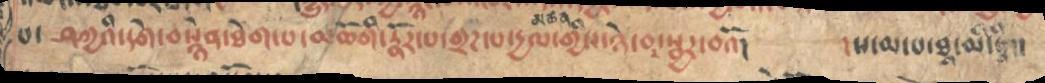པ་  ཤཀྱའི་དགེ་བསྙེན་ཐེག་པ་མཆོགི་རྣོར་པ་གྲཌ་པ་དྱལ་གྱིས་ཉེ་བར་སྦྱར་བའོ།    །ས་མ་པ་ཐཱ་མི་ཏཱི།།
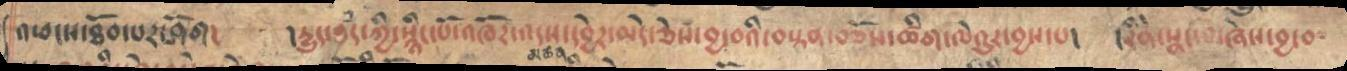འཕངས་ཐོབ་པར་ཤོག།   །དྱུད་ཐཾད་ཀྱི་སྙིང་པོ་འཁོར་འདས་དབྱེར་མེད་ཅེས་བྱ་བའི་བསྟན་བཅོས་ཚིག་ལེའུ་བྱས་པ།   །རིནེ་སྣང་བ་ཞེས་བྱ་བ༴
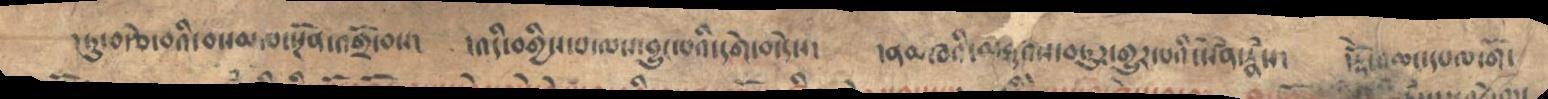། ཏུ་བརྩེ་བའི་བསམ་ལ་སྔོན་འགྲོ་བས།  །འདི་བགྱིས་པ་ལས་བྱུང་པའི་དགེ་བ་དེས།   །ནམཁའི་མཐས་བཏུཌ་གྱུར་པའི་སེཾན་རྣཾས།  །རྡོེ་འཆང་དཔལ་གོང
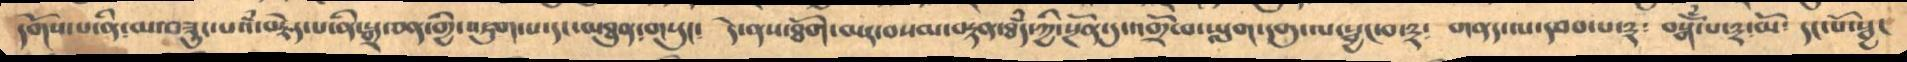དགོས་པ་ནི་མ་བཟུང་པའཾ་བརྗེད་པ་ནི་སྒྲ་ཅན་གྱི་འཇུག་པ་དང་མཐུན་གསུང༴   དེ་ནས་ཐོག་མར་བསམ་བརྟན་ཐཾད་ཀྱི་སྔོན་དུ་འགྲོ་བ་ཡླན་དགུ་ལ་སྦྱང་བ་༣༴   གནད་ལ་དབབ་པ་༣༴    བསྒོཾ་པ་༣་མོ༴   དང་པོ་སྦྱང
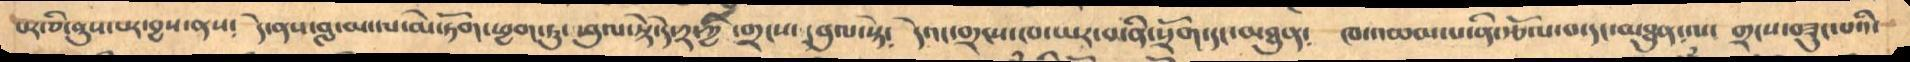པར་ཅི་ནུས་པར་བྱས་ནས༴  དེ་ནས་བླ་མ་ལ་མེ་ཏོག་ཕྱག་ཏུ་ཕུལ་སྟེ་དེ་༢་ཀྱི་གྲངས་དབུལ་སྟེ༴  དེའང་གྲངས་ཁ་ཡར་བ་ནི་སྲོག་དང་མཐུན༴  ཁ་འཆམ་པ་ནི་རྩོལ་བ་དང་མཐུན་ལ་  གྲངས་བཟུང་པའི་
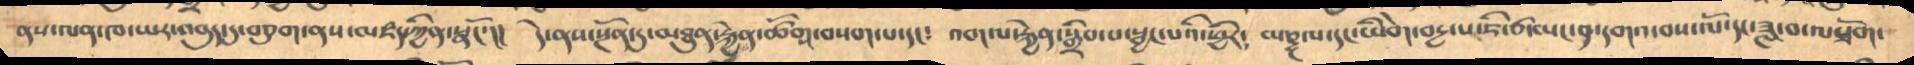ནས་ལན་ཁ་ཡར་འབུད་དུ་བཅུག་ནས་མཛད་ཀྱིན་སྣང་ངོ་།། དེ་ནས་སྔོན་དུ་མཐུན་རྐྱེན་ཚོགས་བསག་པ་དང༴   འགལ་རྐྱེན་སྒྲིབ་པ་སྦྱང་པའི་ཕྱིར༴   མཎྜལ་དང་ཡིགེ་བདྱ་པ་ཇི་ཙ་ཡང་༡་དགའ་བས་ལོ་དང་ཟླ་བ་ལསྭོག་
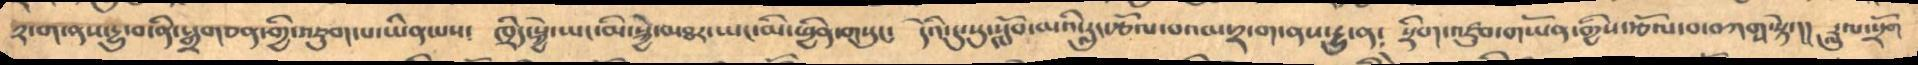༢་ག་ནས་དྱུ་བ་ནི་སྒྲགཅན་གྱིས་འཇུག་པ་ཡིན་པས༴   ཁྲིད་སྐྱེ་ཡང་མི་སྐྱེ་མཐར་ཡང་མི་ཕྱིར་གསུང༴  དེའི་དུས་སུ་སློབ་མའི་རླུང་རྩོལ་བའམ་༢་ག་ནས་དྱུ་ན༴   སྡིག་འཛུབ་གཡོན་གྱིས་རྩོལ་བ་བཀགས་སྟེ་།།  རླུལ་སྲོག
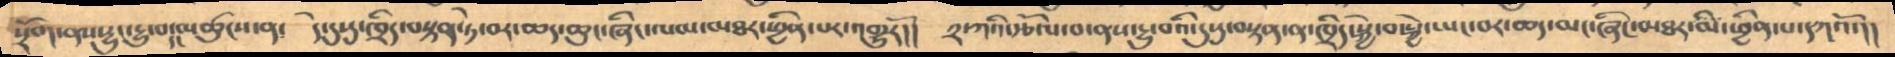སྲོག་ནས་རྱུང་རྱུ་པ་མཚུངས་ན༴  དེ་དུ་སུ་ཁྲིད་བསྟན་ཏེ་བར་ཆད་ཆུ་ཞི་ལམ་མཐར་ཕྱིན་པར་འགྱུརོ།།  ༢་ཀའི་རྩོལ་བ་ནས་རྱུ་བའི་དུསུ་བསྟན་ན་ཁྲིད་སྐྱེ་བ་སྐྱེ་ཡང་བར་ཆད་མང་ཞིང་མཐར་མི་ཕྱིན་པ་དཀའོ་།།
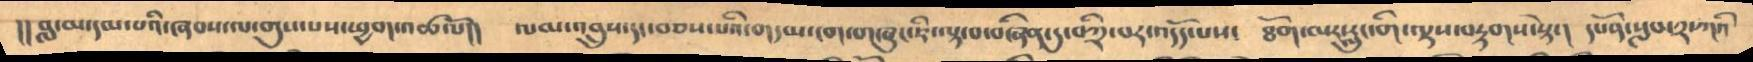།།  བླ་མ་དམ་པའི་ཞབས་ལ་གུས་པས་ཕྱལོ།།  ལམ་འབྲུས་དང་བཅས་པའི་གདམ་ངག་གཞུང་ཇི་ལྟ་བ་བཞིན་དུ་བཀྲི་པར་འདོད་པས་  ཐོག་མར་རླུང་གི་ལྟས་བརྟགས་སྟེ་།  དཔོན་སླབ་༢་ཀའོ
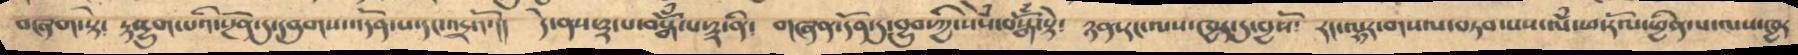བཞག་སྟེ།  རྟ་དྱུག་པའི་སྔོན་དུ་དབུགས་འདོན་པ་དང་འདྲོའོ་།།   དེ་ནས་༣་པ་བསྒོཾ་པ་༣་ནི༴   གཞན་དོནདུ་བྱུབ་ཀྱི་སེཾས་བསྒོཾ་སྟེ༴   ཉན་རང་ལས་ཁྱད་པར་དུ་བྱསོ༴   རང་ལྷར་གསལ་བཏབ་པས་ལཾ་ཕ་རོལ་ཕྱིནཔ་ལས་ཁྱད
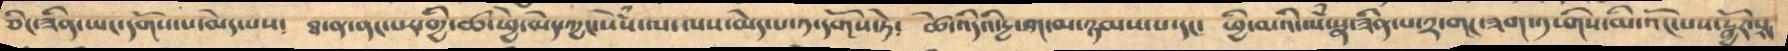ཅིང་ཟིན་ཡང་དགོས་པ་མེད་པས༴ ཐ་ན་ནང་པར་གྱི་ཚ་ཕྱེ་མེད་ཀྱང་སེཾས་ལ་ལས་མེད་པ་༡་དགོས་ཏེ་ ཚེ་འདིའི་དྱ་ག་མ་ཉམས་པ་དང་ ཕྱི་མའི་ལཾ་སྣ་ཟིན་པ་༢་གང་ཟག་༡་གིས་མི་འོང་པས་སྦྱོར་པ
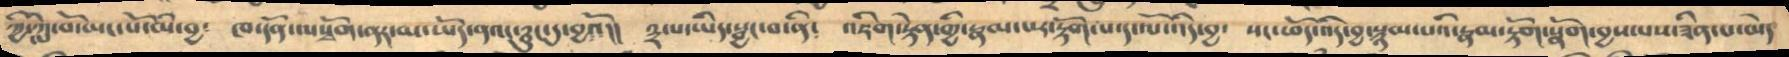ཀྱི་ཀླ་བོ་ཡང་པོ་མི་བྱ༴ ཁ་དོན་ལསྭོག་ནར་མ་ཡོད་ནའང་ཉུང་དུ་བྱའོ།། ༣་པ་ཡིད་སྦྱངབ་ནི་ འཇིག་རྟེན་གྱི་རྣམ་པར་རྟོག་པ་ད་ལོ་འདི་བྱ་ སང་ཕོད་འདི་བྱ་སྙམ་པའི་རྣམ་རྟོག་སྣོག་བྱས་པས་ཟིན་པ་མེད
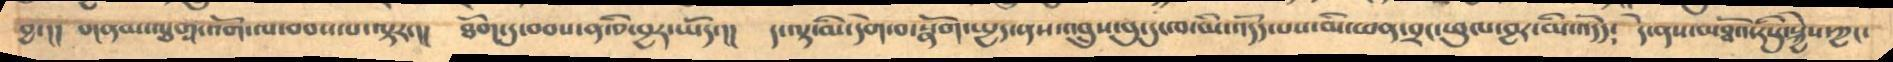བྱ་།། གནམ་ལྕག་འོག་ལ་བབས་པ་ལྟར་།། ཐོག་དུ་བབས་ན་ཅི་བྱར་ཡོད་།། ད་ལྟ་མི་དགེ་བ་སྣོག་སྤྱད་ནས་འབྲུས་བུ་དུ་ཁ་མི་འདོད་པས་མིཕན་བྲང་ཕུལ་བྱར་མི་འདོད༴ དེ་ནས་མཐོའ་རིསུ་སྐྱེས་ཀྱང་
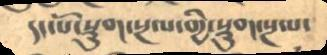དང་པོ་སྡུག་སྔལ་གྱི་སྡུག་སྔལ་
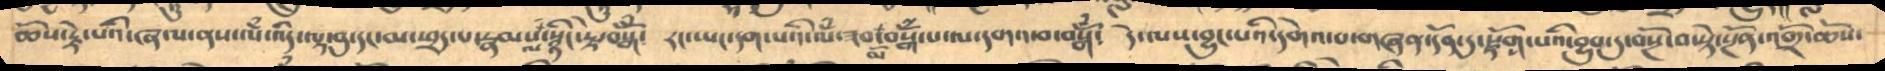ཆོས་རྗེ་པའི་ཞལ་ནས་ལཾ་འདི་ལྟ་བུ་དང་མ་ཕྲད་པ་རྣམས་ལ་སྙིང་རྗེ་བསྒོཾ༴   རང་ཡང་དག་པའི་ལཾ་ཟབ་མོ་བསྒོཾ་པ་ལ་དགའ་བ་བསྒོཾ༴  དེ་ལས་བྱུང་པའི་དགེའ་བ་གཞན་དོན་དུ་རྫོགས་པའི་བྱུབ་དུ་བསྔོ་བ་སྟེ་སྔོན་འགྲོ་ཆོས་
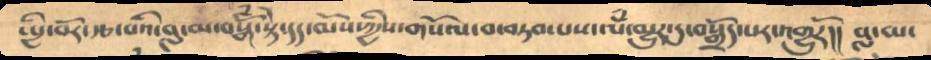སྤྱི་བོར་རྩ་བའི་བླ་མ་བསྒོཾ་སྟེ་དད་མོས་ཀྱིས་གསོལ་བ་བཏབ་པས་ལཾ་མྱུར་དུ་བསྒྲོད་པར་འགྱུརོ།། བླ་མ་
